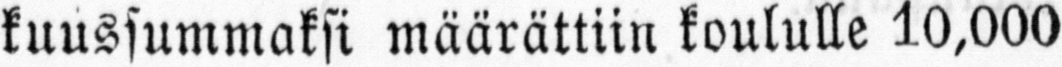kuussummaksi määrättiin koululle 10,000
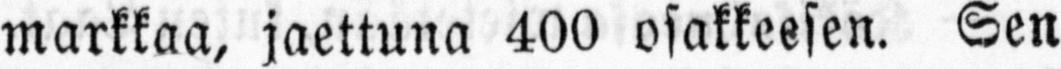markkaa, jaettuna 400 osakkeesen. Sen
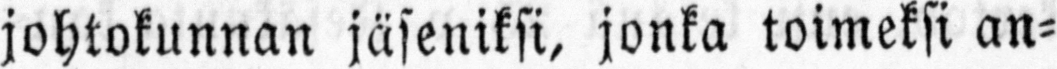johkokunnan jäseniksi, jonka toimeksi an-
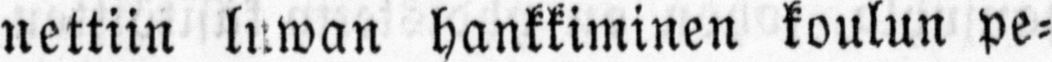nettiin luwan hankkiminen koulun pe-
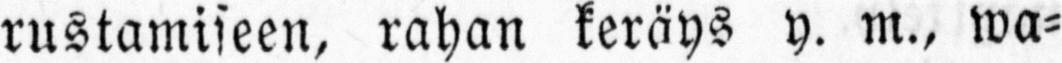rustamiseen, rahan keräys y. m., wa-
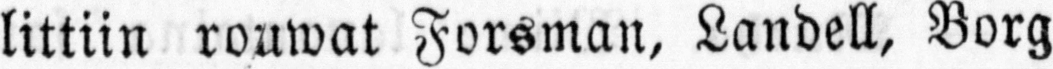littiin rouwat Forsman, Landell, Borg
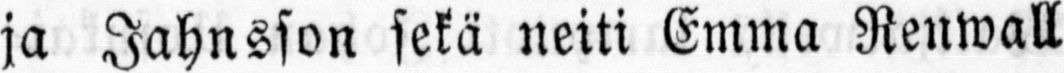ja Jahnsson sekä neiti Emma Renwall
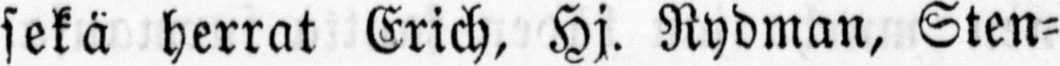sekä herrat Erich, Hj. Rydman, Sten-
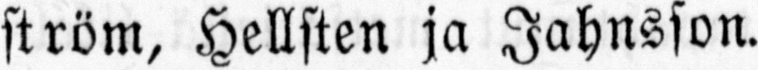ström, Hellsten ja Jahnsson.
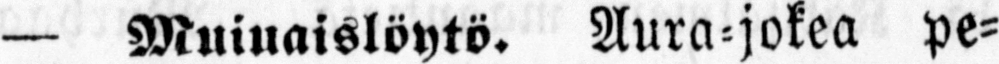— Muiuaislöytö. Aura-jokea pe-
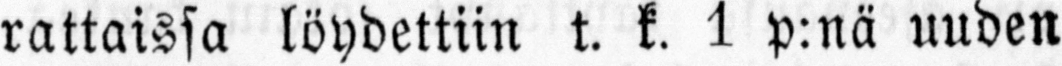rattaissa löydettiin t. k. 1 p:nä uuden
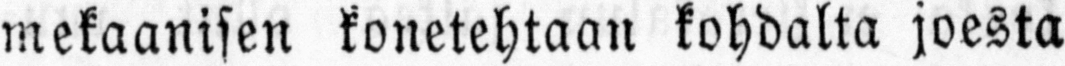mekaanisen konetehtaan kohdalta joesta
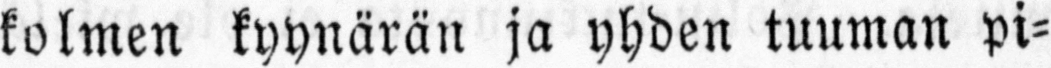kolmen kyynärän ja yhden tuuman pi-
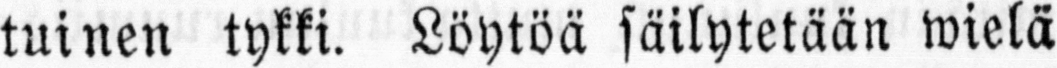tuinen tykki. Löytöä säilytetään wielä
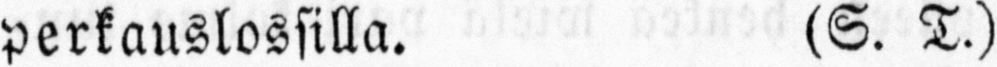perkauslossilla. (S. T.)
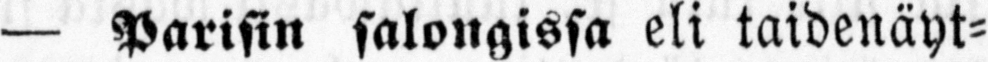— Parisin salongissa eli taidenäyt-
